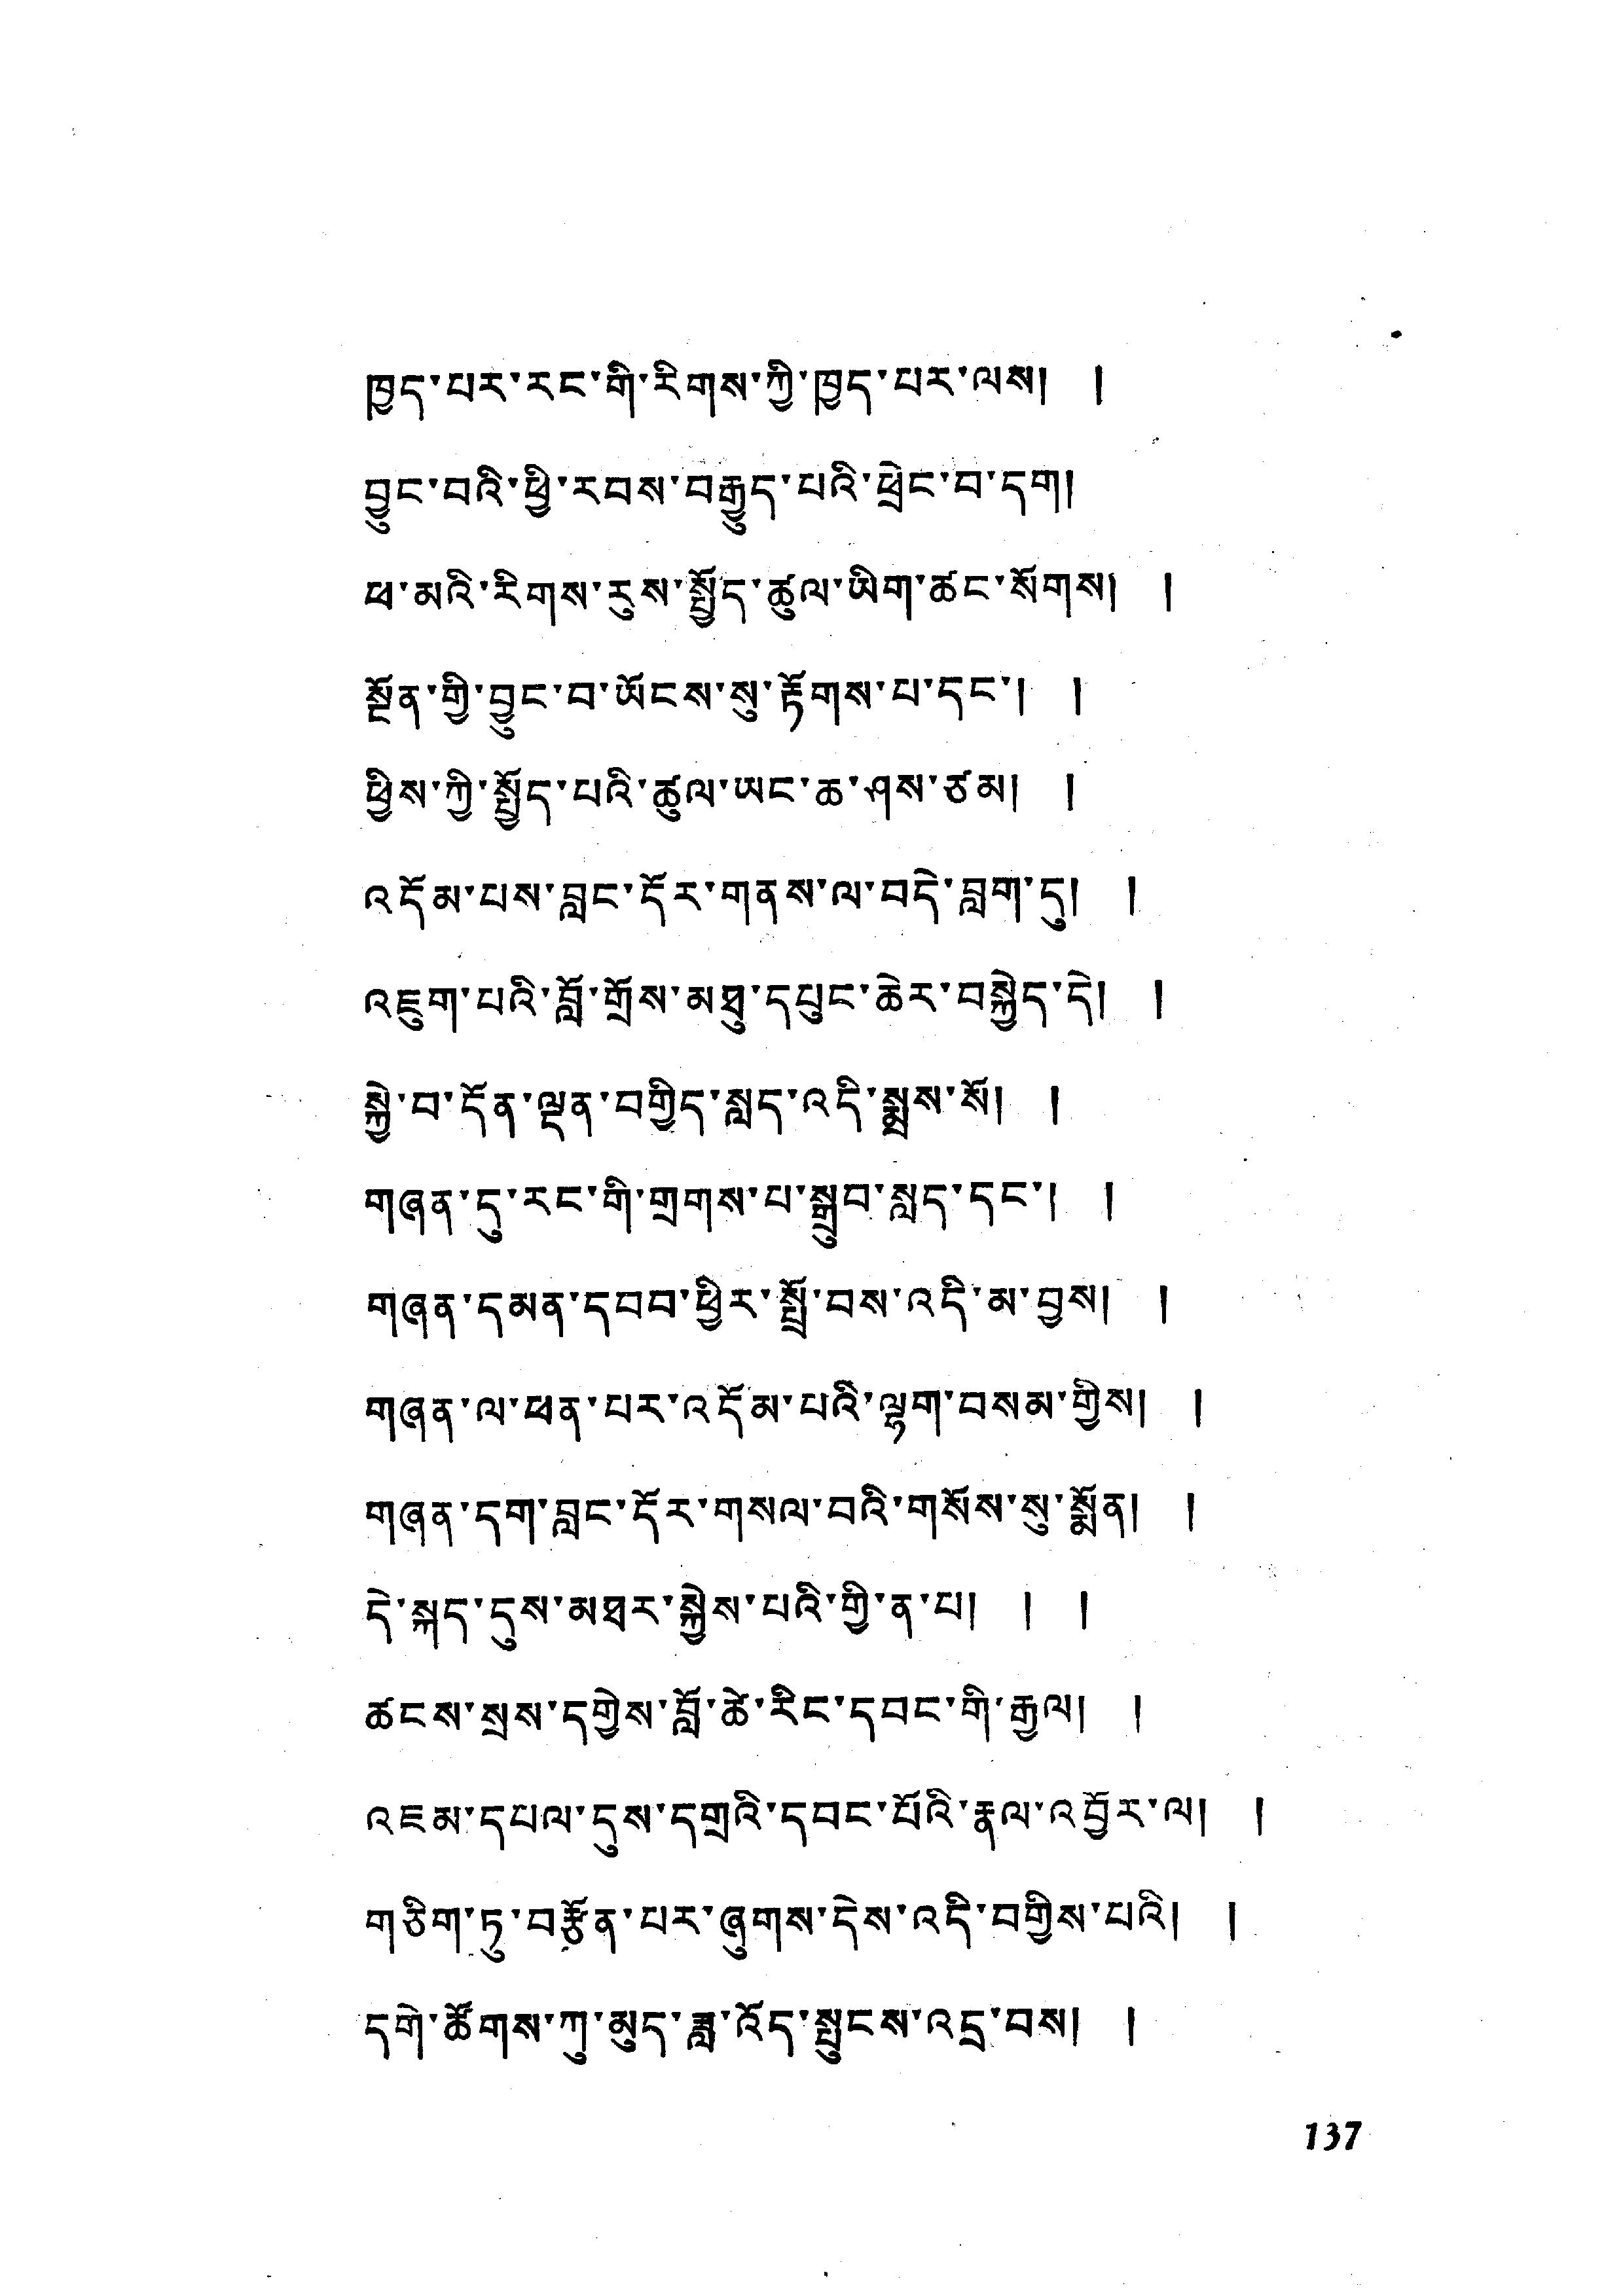ཁྱད་པར་རང་གི་རིགས་ཀྱི་ཁྱད་པར་ལས། །
བྱུང་བའི་ཕྱི་རབས་བརྒྱུད་པའི་ཕྲེང་བ་དགུ།
ཕ་མའི་རིགས་རུས་སྤྱོད་ཚུལ་ཡིག་ཚང་སོགས། །
ལྡོན་གྱི་བྱུང་བ་ཡོངས་སུ་རྟོགས་པ་དང་། །
ཕྱིས་ཀྱི་སྤྱོད་པའི་ཚུལ་ཡང་ཆ་ཤས་ཙམ། །
འདོམ་པས་བླང་དོར་གནས་ལ་བདེ་བླག་དུ། །
འཇུག་པའི་བློ་གྲོས་མཐུ་དཔུང་ཆེར་བསྐྱེད་དེ། །
སྐྱེ་བ་དོན་ལྡན་བགྱིག་སླད་འདི་སྨྲས་སོ། །
གཞན་དུ་རང་གི་གྲགས་པ་སྒྲུབ་སླང་དང་། །
གཞན་དམན་དབབ་ཕྱིར་སྤྲོ་བས་འདི་མ་བྱས། །
གཞན་ལ་ཕན་པར་འདོམ་པའི་ལྷག་བསམ་གྱིས། །
གཞན་དབ་བླང་དོར་གསལ་བའི་གསོས་སུ་སྨོན། །
དེ་སྐད་དུས་མཐར་སྐྱེས་པའི་གྱི་ན་པ། ། །
ཚངས་སྲས་དགྱེས་བློ་ཚེ་རིང་དབང་གི་རྒྱལ། །
འཇམ་དཔལ་དུས་དགྲའི་དབང་པོའི་རྣལ་འབྱོར་ལ། །
གཅིག་ཏུ་བརྩོན་པར་ཞུགས་དེས་འདི་བགྱིས་པའི། །
དགེ་ཚོགས་ཀུ་མུད་ཟླ་འོད་སྤུངས་འདྲ་བས། །
137
